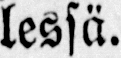lessä.
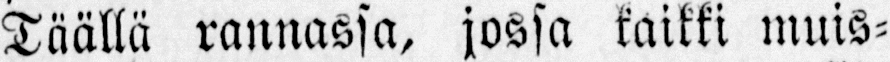Täällä rannassa, jossa kaikki muis-
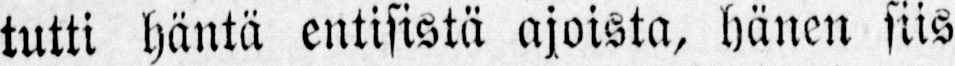tutti häntä entisistä ajoista, hänen siis
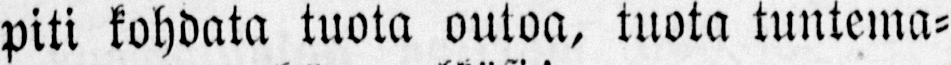piti kohdata tuota outoa, tuota tuntema-
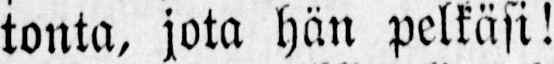tonta, jota hän pelkäsi!
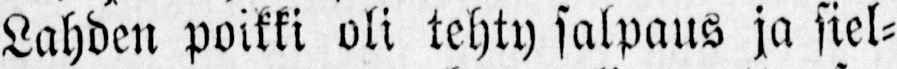Lahden poikki oli tehty salpaus ja siel-
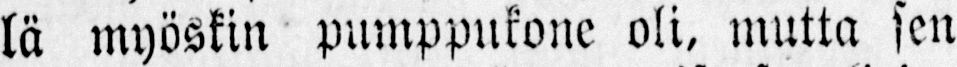lä myöskin pumppukone oli, mutta sen
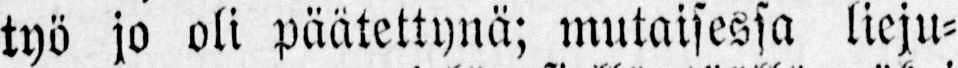työ jo oli päätettynä; mutaisessa lieju-
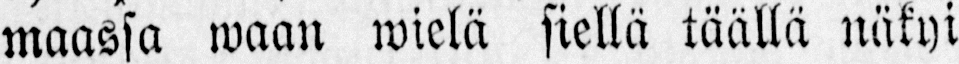maassa waan wielä siellä täällä näkyi
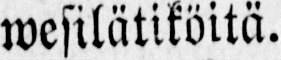wesilätiköitä.
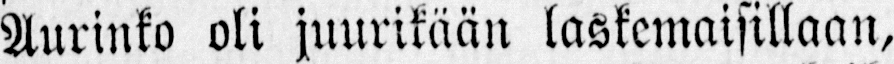Aurinko oli juurikään laskemaisillaan,
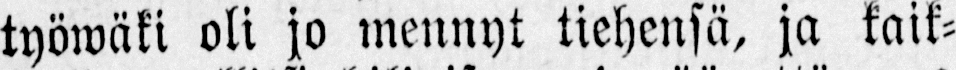työwäki oli jo mennyt tiehensä, ja kaik-
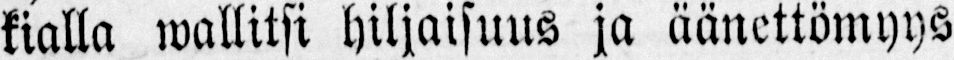kialla wallitsi hiljaisuus ja äänettömyys
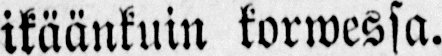ikäänkuin korwessa.
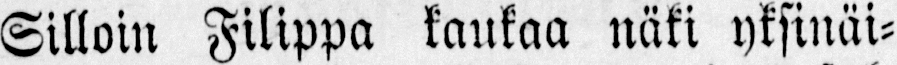Silloin Filippa kaukaa näki yksinäi-
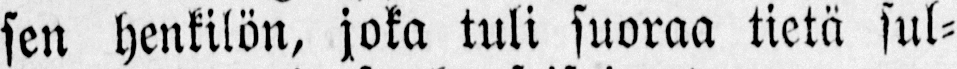sen henkilön, joka tuli suoraa tietä sul-
